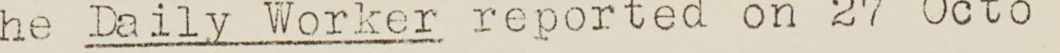seen in the British Crown Colony a-
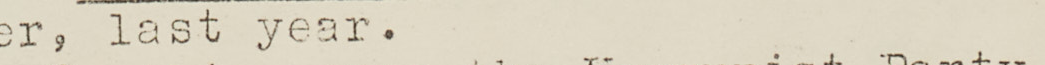side from those displayed by the...
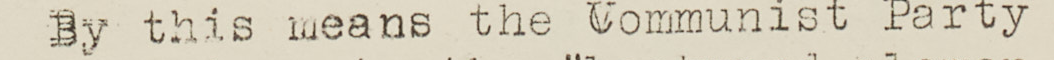banks and other agences controlled
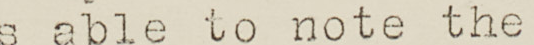by the Communists.
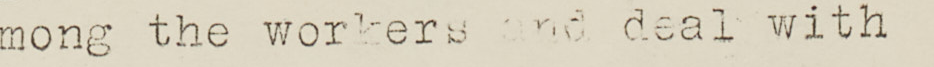The Communist failure on the...
